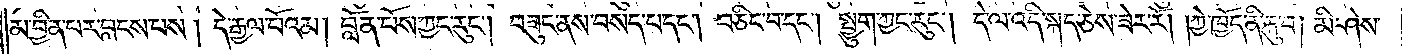མ་བྱིན་པར་བླངས་པས། དེ་རྒྱལ་པོའམ། བློན་པོས་ཀྱང་རུང༌། བཟུང་ནས་བསད་པ་དང༌། བཅིང་བ་དང༌། སྤྱུག་ཀྱང་རུང༌། དེ་ལ་འདི་སྐད་ཅེས་ཟེར་རོ། །ཀྱེ་ཁྱོད་ནི་རྐུ་བ། མི་ཤེས་
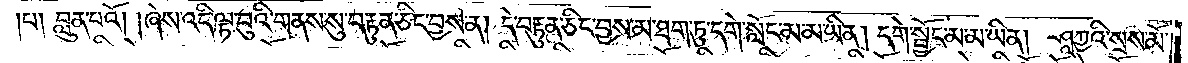པ། བླུན་པའོ། །ཞེས་འདི་ལྟ་བུའི་གནས་སུ་བརྟུན་ཅིང་བྱས་ན། དེ་བརྟུན་ཅིང་བྱས་མ་ཐག་ཏུ་དགེ་སློང་མ་མ་ཡིན། དགེ་སྦྱོང་མ་མ་ཡིན། ཤཱཀྱའི་སྲས་མོ་
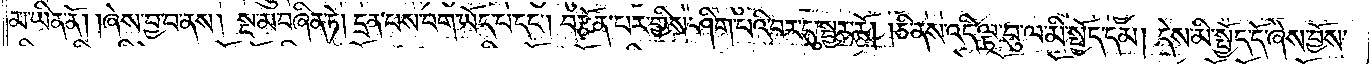མ་ཡིན་ནོ། །ཞེས་བྱ་བ་ནས། སྔ་མ་བཞིན་ཏེ། དྲན་པས་བག་ཡོད་པ་དང༌། བརྩོན་པར་གྱིས་ཤིག་པའི་བར་དུ་སྦྱར་རོ། །ཅི་ནས་འདི་ལྟ་བུ་ལ་མི་སྤྱོད་དམ། དེས་མི་སྤྱོད་དོ་ཞེས་བྱོས་
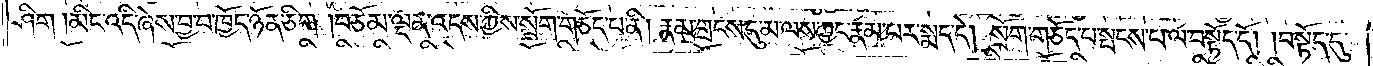ཤིག །མིང་འདི་ཞེས་བྱ་བ་ཁྱོད་ཉོན་ཅིག །བཅོམ་ལྡན་འདས་ཀྱིས་སྲོག་གཅོད་པ་ནི། རྣམ་གྲངས་དུ་མ་ལས་ཀྱང་རྣམ་པར་སྨད་དེ། སྲོག་གཅོད་པ་སྤངས་པ་ལ་བསྟོད་དོ། །བསྟོད་དུ་
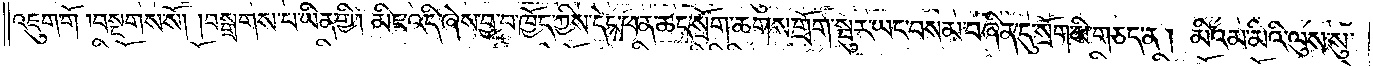འཇུག་གོ །བསྔགས་སོ། །བསྒྲགས་པ་ཡིན་གྱི། མིང་འདི་ཞེས་བྱ་བ་ཁྱོད་ཀྱིས་དེང་ཕན་ཆད་སྲོག་ཆགས་གྲོག་སྦུར་ཡང་བསམ་བཞིན་དུ་སྲོག་མི་གཅད་ན། མིའམ་མིའི་ལུས་སུ་
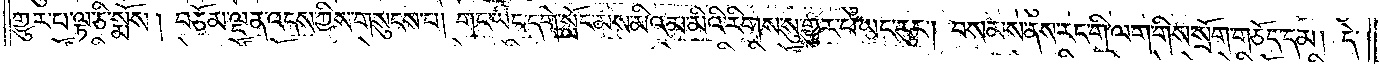གྱུར་པ་ལྟ་ཅི་སྨོས། བཅོམ་ལྡན་འདས་ཀྱིས་གསུངས་པ། གང་ཡང་དགེ་སློང་མས་མིའམ་མིའི་རིགས་སུ་གྱུར་པ་ཡང་རུང༌། བསམས་ནས་རང་གི་ལག་གིས་སྲོག་གཅོད་དམ། དེ་
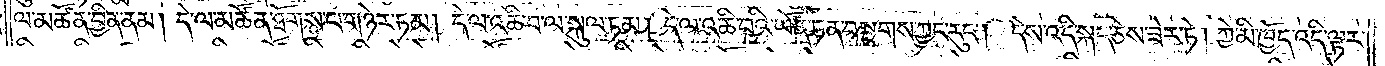ལ་མཚོན་བྱིན་ནམ། དེ་ལ་མཚོན་ཐོགས་པ་གཉེར་ཏམ། དེ་ལ་འཆི་བ་ལ་སྐུལ་ཏམ། དེ་ལ་འཆི་བའི་ཡོན་ཏན་བསྔགས་ཀྱང་རུང༌། དེས་འདི་སྐད་ཅེས་ཟེར་ཏེ། ཀྱེ་མི་ཁྱོད་འདི་ལྟར་
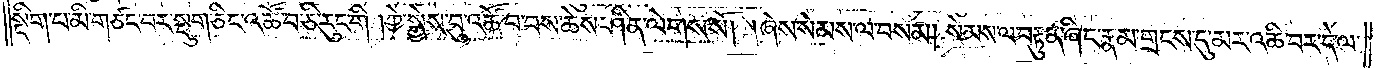སྡིག་པ་མི་གཙང་བར་སྡུག་ཅིང་འཚོ་བ་ཅི་རུང་གི །ཀྱེ་སྐྱེས་བུ་འཚོ་བ་བས་ཆེས་ཤིན་ལེགས་སོ། །ཞེས་སེམས་ལ་བསམ། སེམས་ལ་བརྟུན་ཞིང་རྣམ་གྲངས་དུ་མར་འཆི་བར་དེ་ལ་
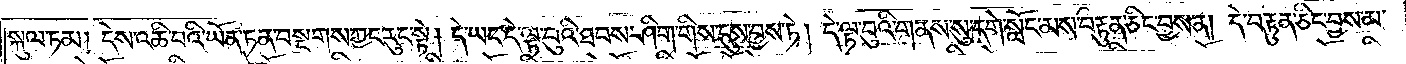སྐུལ་ཏམ། དེས་འཆི་བའི་ཡོན་ཏན་བསྔགས་ཀྱང་རུང་སྟེ། དེ་ཡང་དེ་ལྟ་བུའི་ཐབས་ཤིག་གིས་དུས་བྱས་ཏེ། དེ་ལྟ་བུའི་གནས་སུ་དགེ་སློང་མས་བརྟུན་ཅིང་བྱས་ན། དེ་བརྟུན་ཅིང་བྱས་མ་
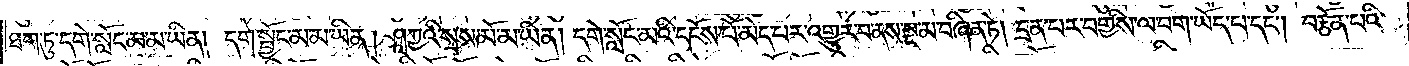ཐག་ཏུ་དགེ་སློང་མ་མ་ཡིན། དགེ་སྦྱོང་མ་མ་ཡིན། ཤཱཀྱའི་སྲས་མོ་མ་ཡིན། དགེ་སློང་མའི་དངོས་པོ་མེད་པར་འགྱུར་བ་ནས་སྔ་མ་བཞིན་ཏེ། དྲན་པར་བགྱིས་ལ་བག་ཡོད་པ་དང༌། བརྩོན་པའི་
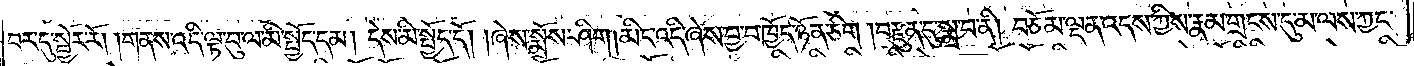བར་དུ་སྦྱོར་རོ། །གནས་འདི་ལྟ་བུ་ལ་མི་སྤྱོད་དམ། དེས་མི་སྤྱོད་དོ། །ཞེས་སྨྲོས་ཤིག །མིང་འདི་ཞེས་བྱ་བ་ཁྱོད་ཉོན་ཅིག །བརྫུན་དུ་སྨྲ་བ་ནི། བཅོམ་ལྡན་འདས་ཀྱིས་རྣམ་གྲངས་དུ་མ་ལས་ཀྱང་
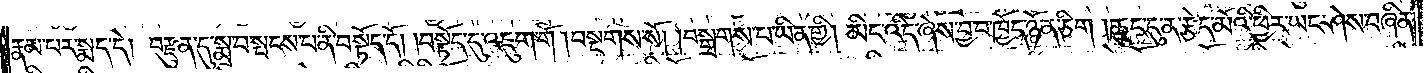རྣམ་པར་སྨད་དེ། བརྫུན་དུ་སྨྲ་བ་སྤངས་པ་ནི་བསྟོད་དོ། །བསྟོད་དུ་འཇུག་གོ །བསྔགས་སོ། །བསྒྲགས་པ་ཡིན་གྱི། མིང་འདི་ཞེས་བྱ་བ་ཁྱོད་ཉོན་ཅིག །ཆུང་དུ་ན་རྩེད་མོའི་ཕྱིར་ཡང་ཤེས་བཞིན་
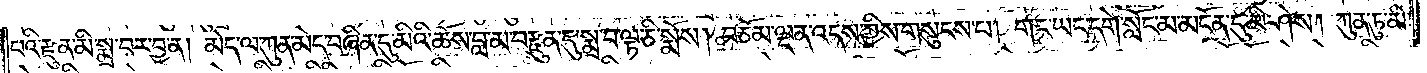པའི་རྫུན་མི་སྨྲ་བར་བྱ་ན། མེད་ལ་ཀུན་མེད་བཞིན་དུ་མིའི་ཆོས་བླ་མ་བརྫུན་དུ་སྨྲ་བ་ལྟ་ཅི་སྨོས། བཅོམ་ལྡན་འདས་ཀྱིས་གསུངས་པ། གང་ཡང་དགེ་སློང་མ་མངོན་དུ་མི་ཤེས། ཀུན་ཏུ་མི་
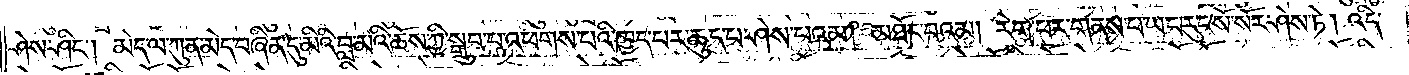ཤེས་ཤིང༌། མེད་ལ་ཀུན་མེད་བཞིན་དུ་མིའི་བླ་མའི་ཆོས་ཀྱི་སྒྲུབ་པ་འཕགས་པའི་ཁྱད་པར་ཆུད་པ་ཤེས་པའམ། མཐོང་བའམ། རེག་པར་གནས་པ་ཡང་རུང་སོ་སོར་ཤེས་ཏེ། འདི་
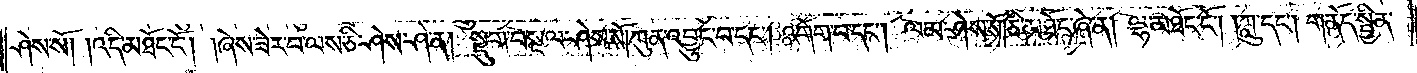ཤེས་སོ། །འདི་མཐོང་ངོ༌། །ཞེས་ཟེར་བ་ལས་ཅི་ཤེས་ཤེ་ན། སྡུག་བསྔལ་ཤེས་སོ། །ཀུན་འབྱུང་བ་དང༌། འགོག་པ་དང༌། ལམ་ཤེས་སོ། ཅི་མཐོང་ཞེ་ན། ལྷ་མཐོང་ངོ༌། །ཀླུ་དང༌། གནོད་སྦྱིན་
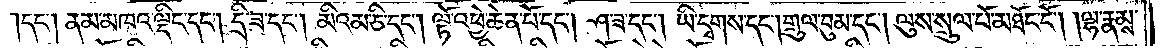དང༌། ནམ་མཁའ་ལྡིང་དང༌། དྲི་ཟ་དང༌། མིའམ་ཅི་དང༌། ལྟོ་འཕྱེ་ཆེན་པོ་དང༌། ཤ་ཟ་དང༌། ཡི་དྭགས་དང༌། གྲུལ་བུམ་དང༌། ལུས་སྲུལ་པོ་མཐོང་ངོ༌། །ལྷ་རྣམས་
